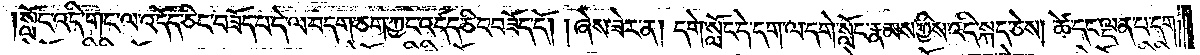སློང་འདི་གང་ལ་འདོད་ཅིང་བཟོད་པ་དེ་ལ་བདག་ཅག་ཀྱང་འདོད་ཅིང་བཟོད་དོ། །ཞེས་ཟེར་ན། དགེ་སློང་དེ་དག་ལ་དགེ་སློང་རྣམས་ཀྱིས་འདི་སྐད་ཅེས། ཚེ་དང་ལྡན་པ་དག་
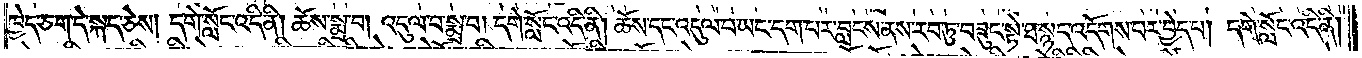ཁྱེད་ཅག་དེ་སྐད་ཅེས། དགེ་སློང་འདི་ནི། ཆོས་སྨྲ་བ། འདུལ་བ་སྨྲ་བ། དགེ་སློང་འདི་ནི། ཆོས་དང་འདུལ་བ་ཡང་དག་པར་བླངས་ནས་རབ་ཏུ་བཟུང་སྟེ་ཐ་སྙད་འདོགས་པར་བྱེད་པ། དགེ་སློང་འདི་ནི།
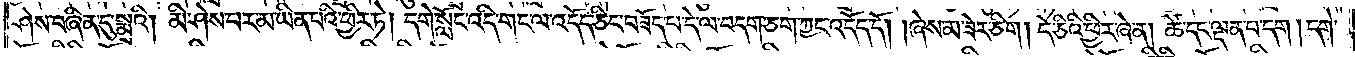ཤེས་བཞིན་དུ་སྨྲའི། མི་ཤེས་པར་མ་ཡིན་པའི་ཕྱིར་ཏེ། དགེ་སློང་འདི་གང་ལ་འདོད་ཅིང་བཟོད་པ་དེ་ལ་བདག་ཅག་ཀྱང་འདོད་དོ། །ཞེས་མ་ཟེར་ཅིག། དེ་ཅིའི་ཕྱིར་ཞེ་ན། ཚེ་དང་ལྡན་པ་དག། དགེ་
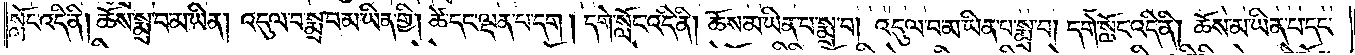སློང་འདི་ནི། ཆོས་སྨྲ་བ་མ་ཡིན། འདུལ་བ་སྨྲ་བ་མ་ཡིན་གྱི། ཚེ་དང་ལྡན་པ་དག ། དགེ་སློང་འདི་ནི། ཆོས་མ་ཡིན་པ་སྨྲ་བ། འདུལ་བ་མ་ཡིན་པ་སྨྲ་བ། དགེ་སློང་འདི་ནི། ཆོས་མ་ཡིན་པ་དང་
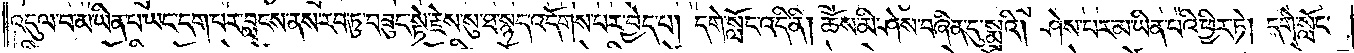འདུལ་བ་མ་ཡིན་པ་ཡང་དག་པར་བླངས་ནས་རབ་ཏུ་བཟུང་སྟེ་རྗེས་སུ་ཐ་སྙད་འདོགས་པར་བྱེད་པ། དགེ་སློང་འདི་ནི། ཆོས་མི་ཤེས་བཞིན་དུ་སྨྲའི། ཤེས་པར་མ་ཡིན་པའི་ཕྱིར་ཏེ། དགེ་སློང་
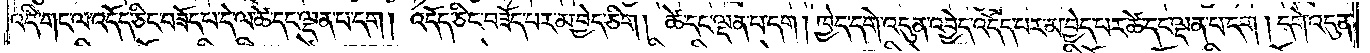འདི་གང་ལ་འདོད་ཅིང་བཟོད་པ་དེ་ལ་ཚེ་དང་ལྡན་པ་དག། འདོད་ཅིང་བཟོད་པར་མ་བྱེད་ཅིག ། ཚེ་དང་ལྡན་པ་དག ། ཁྱེད་དགེ་འདུན་འབྱེད་འདོད་པར་མ་བྱེད་པར་ཚེ་དང་ལྡན་པ་དག ། དགེ་འདུན་
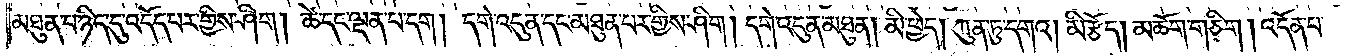མཐུན་པ་ཉིད་དུ་འདོད་པར་གྱིས་ཤིག། ཚེ་དང་ལྡན་པ་དག། དགེ་འདུན་དང་མཐུན་པར་གྱིས་ཤིག ། དགེ་འདུན་མཐུན། མི་ཕྱེད། ཀུན་ཏུ་དགའ། མི་རྩོད། མཆོག་གཅིག ། འདོན་པ་
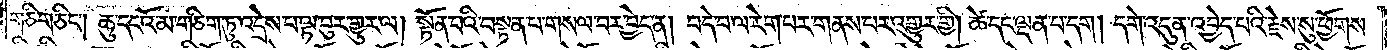གཅིག་ཅིང༌། ཆུ་དང་འོ་མ་གཅིག་ཏུ་འདྲེས་པ་ལྟ་བུར་གྱུར་ལ། སྟོན་པའི་བསྟན་པ་གསལ་བར་བྱེད་ན། བདེ་བ་ལ་རེག་པར་གནས་པར་འགྱུར་གྱི། ཚེ་དང་ལྡན་པ་དག། དགེ་འདུན་འབྱེད་པའི་རྗེས་སུ་ཕྱོགས་
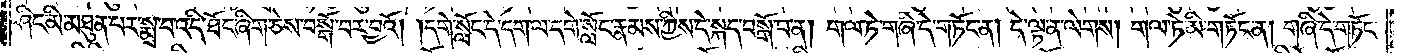ཤིང་མི་མཐུན་པར་སྨྲ་བ་འདི་ཐོང་ཞིག་ཅེས་བསྒོ་བར་བྱའོ། །དགེ་སློང་དེ་དག་ལ་དགེ་སློང་རྣམས་ཀྱིས་དེ་སྐད་བསྒོ་བ་ན། གལ་ཏེ་གཞི་དེ་གཏོང་ན། དེ་ལྟ་ན་ལེགས། གལ་ཏེ་མི་གཏོང་ན། གཞི་དེ་གཏོང་
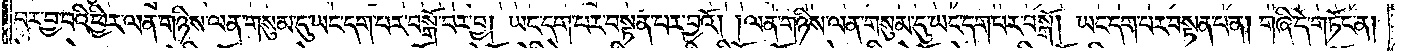བར་བྱ་བའི་ཕྱིར་ལན་གཉིས་ལན་གསུམ་དུ་ཡང་དག་པར་བསྒོ་བར་བྱ། ཡང་དག་པར་བསྟན་པར་བྱའོ། །ལན་གཉིས་ལན་གསུམ་དུ་ཡང་དག་པར་བསྒོ། ཡང་དག་པར་བསྟན་པ་ན། གཞི་དེ་གཏོང་ན།
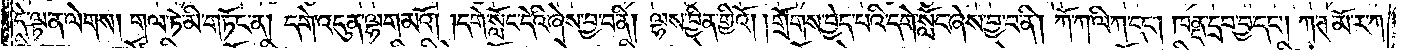དེ་ལྟ་ན་ལེགས། གལ་ཏེ་མི་གཏོང་ན། དགེ་འདུན་ལྷག་མའོ། །དགེ་སློང་དེའི་ཞེས་བྱ་བ་ནི། ལྷས་བྱིན་གྱིའོ། །གྲོགས་བྱེད་པའི་དགེ་སློང་ཞེས་བྱ་བ་ནི། ཀོ་ཀ་ལི་ཀ་དང༌། ཁནྡ་དྲབ་བྱ་དང༌། ཀ་ཊ་མོ་ར་ཀ་
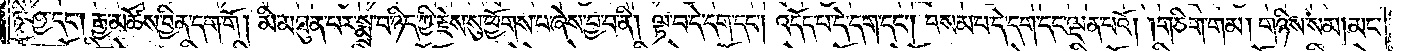ཏི་ཤྱ་དང༌། རྒྱ་མཚོས་བྱིན་དག་གོ། མི་མཐུན་པར་སྨྲ་བ་ཉིད་ཀྱི་རྗེས་སུ་ཕྱོགས་པ་ཞེས་བྱ་བ་ནི། ལྟ་བ་དེ་དག་དང༌། འདོད་པ་དེ་དག་དང༌། བསམ་པ་དེ་དག་དང་ལྡན་པའོ། །གཅིག་གམ། གཉིས་སམ།མང་
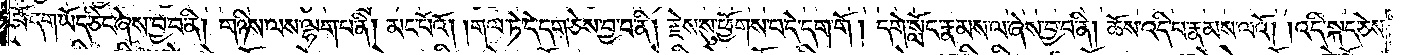པོ་དག་ཡོད་ཅིང་ཞེས་བྱ་བ་ནི། གཉིས་ལས་ལྷག་པ་ནི། མང་པོའོ། །གལ་ཏེ་དེ་དག་ཅེས་བྱ་བ་ནི། རྗེས་སུ་ཕྱོགས་པ་དེ་དག་གོ། དགེ་སློང་རྣམས་ལ་ཞེས་བྱ་བ་ནི། ཆོས་འདི་པ་རྣམས་ལའོ། །འདི་སྐད་ཅེས་
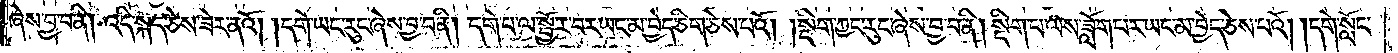ཞེས་བྱ་བ་ནི། འདི་སྐད་ཅེས་ཟེར་ནའོ། །དགེ་ཡང་རུང་ཞེས་བྱ་བ་ནི། དགེ་བ་ལ་སྦྱོར་བར་ཡང་མ་བྱེད་ཅིག་ཅེས་པའོ། །སྡིག་ཀྱང་རུང་ཞེས་བྱ་བ་ནི། སྡིག་པ་ལས་ཟློག་པར་ཡང་མ་བྱེད་ཅེས་པའོ། །དགེ་སློང་
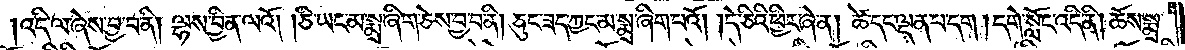འདི་ལ་ཞེས་བྱ་བ་ནི། ལྷས་བྱིན་ལའོ། །ཅི་ཡང་མ་སྨྲ་ཞིག་ཅེས་བྱ་བ་ནི། ཅུང་ཟད་ཀྱང་མ་སྨྲ་ཞིག་པའོ། །དེ་ཅིའི་ཕྱིར་ཞེ་ན། ཚེ་དང་ལྡན་པ་དག། དགེ་སློང་འདི་ནི། ཆོས་སྨྲ་
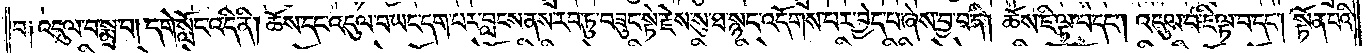བ། འདུལ་བ་སྨྲ་བ། དགེ་སློང་འདི་ནི། ཆོས་དང་འདུལ་བ་ཡང་དག་པར་བླངས་ནས་རབ་ཏུ་བཟུང་སྟེ་རྗེས་སུ་ཐ་སྙད་འདོགས་པར་བྱེད་པ་ཞེས་བྱ་བ་ནི། ཆོས་ཇི་ལྟ་བ་དང༌། འདུལ་བ་ཇི་ལྟ་བ་དང༌། སྟོན་པའི་
